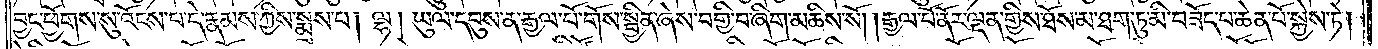བྱང་ཕྱོགས་སུ་འོངས་པ་དེ་རྣམས་ཀྱིས་སྨྲས་པ། ལྷ། ཡུལ་དབུས་ན་རྒྱལ་པོ་གོས་སྦྱིན་ཞེས་བགྱི་བ་ཞིག་མཆིས་སོ། །རྒྱལ་པོ་ནོར་ལྡན་གྱིས་ཐོས་མ་ཐག་ཏུ་མི་བཟོད་པ་ཆེན་པོ་སྐྱེས་ཏེ།
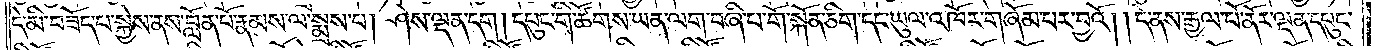དེ་མི་བཟོད་པ་སྐྱེས་ནས་བློན་པོ་རྣམས་ལ་སྨྲས་པ། ཤེས་ལྡན་དག །དཔུང་གི་ཚོགས་ཡན་ལག་བཞི་པ་གོ་སྐོན་ཅིག་དང་ཡུལ་འཁོར་གཞོམ་པར་བྱའོ། །དེ་ནས་རྒྱལ་པོ་ནོར་ལྡན་དཔུང་
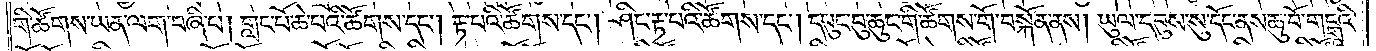གི་ཚོགས་ཡན་ལག་བཞི་པ། གླང་པོ་ཆེ་པའི་ཚོགས་དང༌། རྟ་པའི་ཚོགས་དང༌། ཤིང་རྟ་པའི་ཚོགས་དང༌། དཔུང་བུ་ཆུང་གི་ཚོགས་གོ་བསྐོན་ནས། ཡུལ་དབུས་སུ་དོང་ནས་ཆུ་བོ་གངྒཱའི་
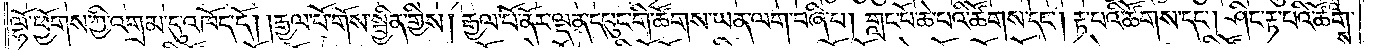ལྷོ་ཕྱོགས་ཀྱི་འགྲམ་དུ་འཁོད་དོ། །རྒྱལ་པོ་གོས་སྦྱིན་གྱིས། རྒྱལ་པོ་ནོར་ལྡན་དཔུང་གི་ཚོགས་ཡན་ལག་བཞི་པ། གླང་པོ་ཆེ་པའི་ཚོགས་དང༌། རྟ་པའི་ཚོགས་དང༌། ཤིང་རྟ་པའི་ཚོགས་
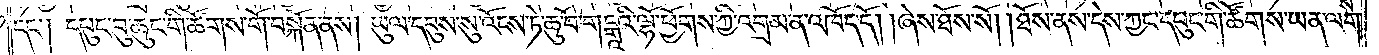དང༌། དཔུང་བུ་ཆུང་གི་ཚོགས་གོ་བསྐོན་ནས། ཡུལ་དབུས་སུ་འོངས་ཏེ་ཆུ་བོ་གངྒཱའི་ལྷོ་ཕྱོགས་ཀྱི་འགྲམ་ན་འཁོད་དོ། །ཞེས་ཐོས་སོ། །ཐོས་ནས་དེས་ཀྱང་དཔུང་གི་ཚོགས་ཡན་ལག་
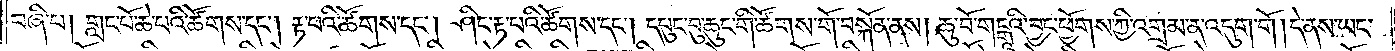བཞི་པ། གླང་པོ་ཆེ་བའི་ཚོགས་དང༌། རྟ་པའི་ཚོགས་དང༌། ཤིང་རྟ་པའི་ཚོགས་དང༌། དཔུང་བུ་ཆུང་གི་ཚོགས་གོ་བསྐོན་ནས། ཆུ་བོ་གངྒཱའི་བྱང་ཕྱོགས་ཀྱི་འགྲམ་ན་འདུག་གོ །དེ་ནས་ཡང་
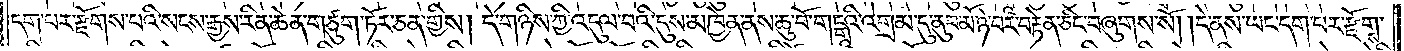དག་པར་རྫོགས་པའི་སངས་རྒྱས་རིན་ཆེན་གཙུག་ཏོར་ཅན་གྱིས། དེ་གཉིས་ཀྱི་འདུལ་བའི་དུས་མཁྱེན་ནས་ཆུ་བོ་གངྒཱའི་འགྲམ་དུ་ནུབ་མོ་ཉེ་བར་བརྟེན་ཅིང་བཞུགས་སོ། །དེ་ནས་ཡང་དག་པར་རྫོགས་
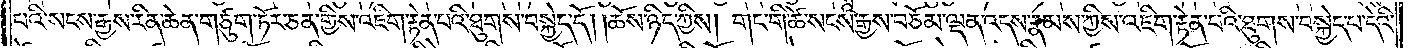པའི་སངས་རྒྱས་རིན་ཆེན་གཙུག་ཏོར་ཅན་གྱིས་འཇིག་རྟེན་པའི་ཐུགས་བསྐྱེད་དོ། །ཆོས་ཉིད་ཀྱིས། གང་གི་ཚེ་སངས་རྒྱས་བཅོམ་ལྡན་འདས་རྣམས་ཀྱིས་འཇིག་རྟེན་པའི་ཐུགས་བསྐྱེད་པ་དེའི་
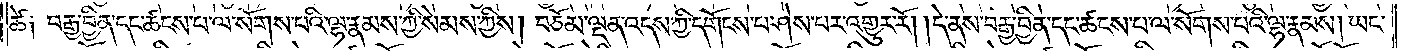ཚེ༑ བརྒྱ་བྱིན་དང་ཚངས་པ་ལ་སོགས་པའི་ལྷ་རྣམས་ཀྱི་སེམས་ཀྱིས། བཅོམ་ལྡན་འདས་ཀྱི་དགོངས་པ་ཤེས་པར་འགྱུར་རོ། །དེ་ནས་བརྒྱ་བྱིན་དང་ཚངས་པ་ལ་སོགས་པའི་ལྷ་རྣམས། ཡང་
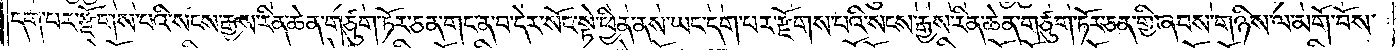དག་པར་རྫོགས་པའི་སངས་རྒྱས་རིན་ཆེན་གཙུག་ཏོར་ཅན་གང་ན་བ་དེར་སོང་སྟེ་ཕྱིན་ནས་ཡང་དག་པར་རྫོགས་པའི་སངས་རྒྱས་རིན་ཆེན་གཙུག་ཏོར་ཅན་གྱི་ཞབས་གཉིས་ལ་མགོ་བོས་
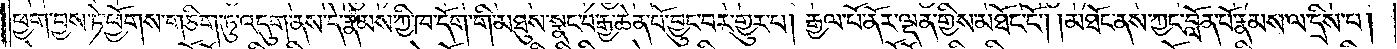ཕྱག་བྱས་ཏེ་ཕྱོགས་གཅིག་ཏུ་འདུག་ནས་དེ་རྣམས་ཀྱི་ཁ་དོག་གི་མཐུས་སྣང་པ་རྒྱ་ཆེན་པོ་བྱུང་བར་གྱུར་པ། རྒྱལ་པོ་ནོར་ལྡན་གྱིས་མཐོང་ངོ༌། །མཐོང་ནས་ཀྱང་བློན་པོ་རྣམས་ལ་དྲིས་པ།
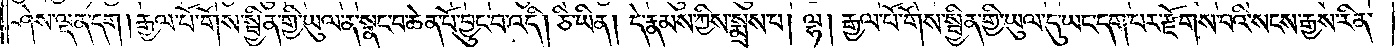ཤེས་ལྡན་དག །རྒྱལ་པོ་གོས་སྦྱིན་གྱི་ཡུལ་ན་སྣང་བ་ཆེན་པོ་བྱུང་བ་འདི། ཅི་ཡིན། དེ་རྣམས་ཀྱིས་སྨྲས་པ། ལྷ། རྒྱལ་པོ་གོས་སྦྱིན་གྱི་ཡུལ་དུ་ཡང་དག་པར་རྫོགས་པའི་སངས་རྒྱས་རིན་
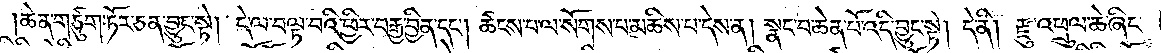ཆེན་གཙུག་ཏོར་ཅན་བྱུང་སྟེ། དེ་ལ་བལྟ་བའི་ཕྱིར་བརྒྱ་བྱིན་དང༌། ཚངས་པ་ལ་སོགས་པ་མཆིས་པ་དེས་ན། སྣང་བ་ཆེན་པོ་འདི་བྱུང་སྟེ། དེ་ནི། རྫུ་འཕྲུལ་ཆེ་ཞིང་
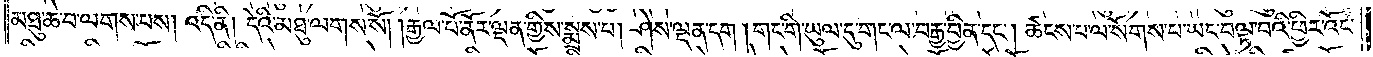མཐུ་ཆེ་བ་ལགས་པས། འདི་ནི། དེའི་མཐུ་ལགས་སོ། །རྒྱལ་པོ་ནོར་ལྡན་གྱིས་སྨྲས་པ། ཤེས་ལྡན་དག །གང་གི་ཡུལ་དུ་གང་ལ་བརྒྱ་བྱིན་དང༌། ཚངས་པ་ལ་སོགས་པ་ཡང་བལྟ་བའི་ཕྱིར་འོང་
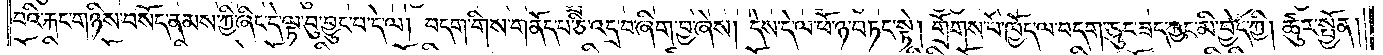བའི་རྐང་གཉིས་བསོད་ནམས་ཀྱི་ཞིང་དེ་ལྟ་བུ་བྱུང་བ་དེ་ལ། བདག་གིས་གནོད་པ་ཅི་འདྲ་བ་ཞིག་བྱ་ཞེས། དེས་དེ་ལ་ཕོ་ཉ་བཏང་སྟེ། གྲོགས་པོ་ཁྱོད་ལ་བདག་ཅུང་ཟད་ཀྱང་མི་བྱེད་ཀྱི། ཚུར་སྤྱོན།
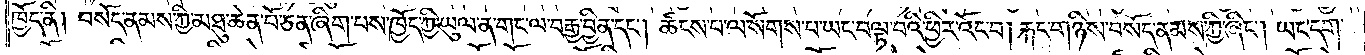ཁྱོད་ནི། བསོད་ནམས་ཀྱི་མཐུ་ཆེན་པོ་ཅན་ཞིག་པས་ཁྱོད་ཀྱི་ཡུལ་ན་གང་ལ་བརྒྱ་བྱིན་དང༌། ཚངས་པ་ལ་སོགས་པ་ཡང་བལྟ་བའི་ཕྱིར་འོང་བ། རྐང་གཉིས་བསོད་ནམས་ཀྱི་ཞིང༌། ཡང་དག་
